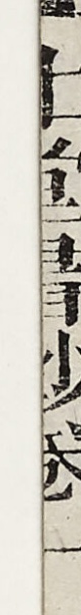北堂書鈔卷一
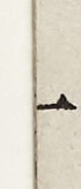一
